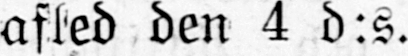afled den 4 d:s.
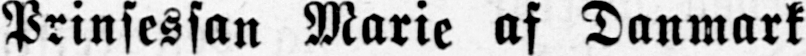Prinsessan Marie af Danmark
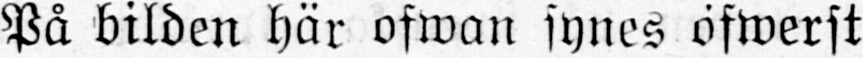På bilden här ofwan synes öfwerst
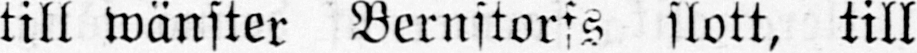till wänster Bernstorfs slott, till
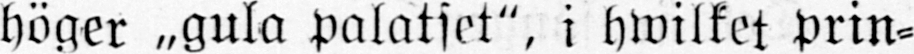höger „gula palatset", i hwilket prin-
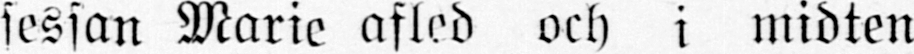sessan Marie afled och i midten
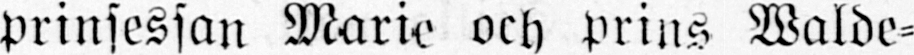prinsessan Marie och prins Walde-
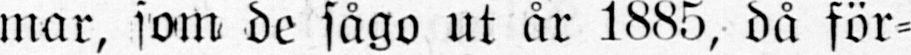mar, som de sågo ut år 1885, då för-
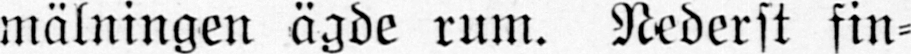mälningen ägde rum. Nederst fin-
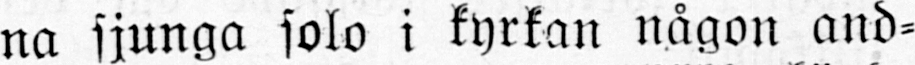na sjunga solo i kyrkan någon and-
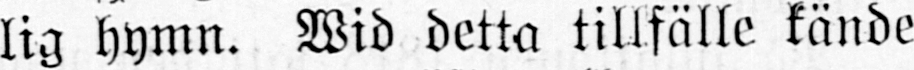lig hymn. Wid detta tillfälle kände
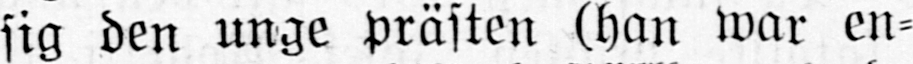sig den unge prästen (han war en-
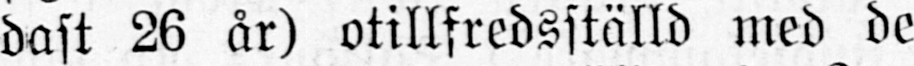dast 26 år) otillfredsställd med de
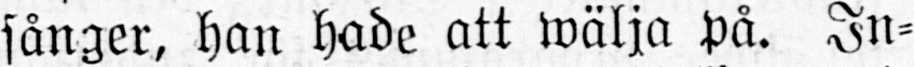sånger, han hade att wälja på. In-
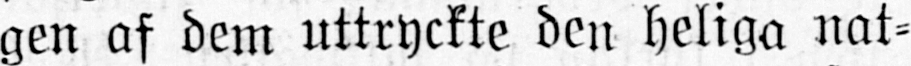gen af dem uttryckte den heliga nat-
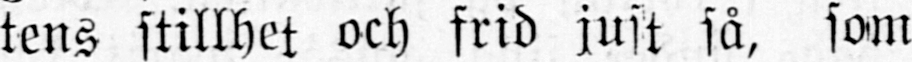tens stillhet och frid just så, som
